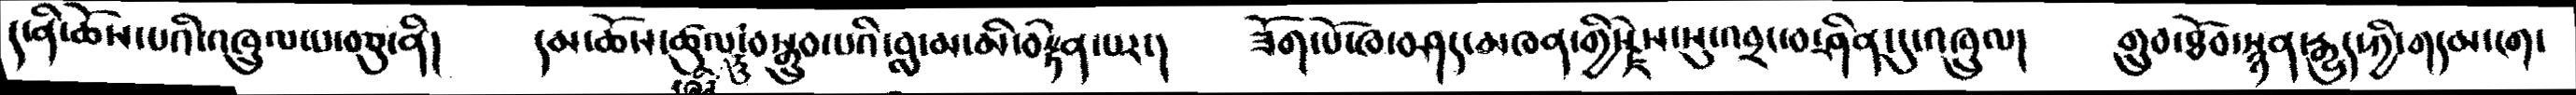ད་ནི་ཆོས་པའི་འཁྲུལ་པ་བཅུ་ནི།    དམ་ཆོས་ཚུལ་བཞིན་ཏུ་བསྒྲུབ་པའི་བླ་མ་མི་བརྟེན་པར་།   ཟོག་པོ་ཁ་བཤད་མཁན་གྱི་རྗེས་སུ་འབྲས་བ་ཤིན་དུ་འཁྲུལ།   གྲུབ་ཐོབ་སྙན་རྒྱུ་ཀྱི་གདམ་ངག་
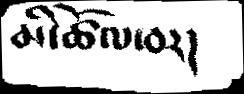མི་ཚོལ་བར།
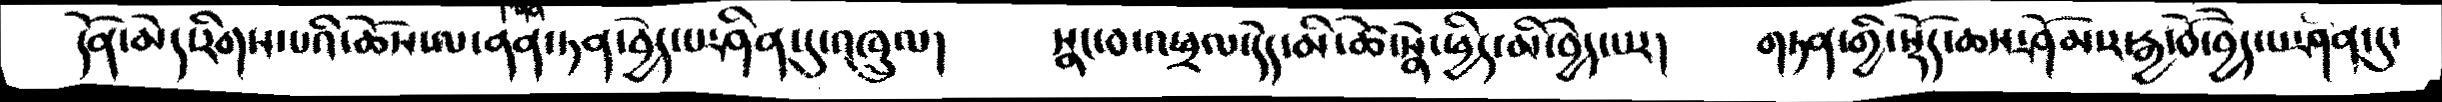དོན་མེད་རིགས་པའི་ཆོས་ལ་ནན་ཏན་བྱེད་པ་ཤིན་དུ་འཁྲུལ།      སྣང་བ་འཕྲལ་དེད་མི་ཚེ་སྣེ་ཕྱིད་མི་བྱེད་པར།    གཏན་གྱི་སྡོད་ཆས་ཤོམ་ར་རྒྱ་བོ་བྱེད་པ་ཤིན་དུ་
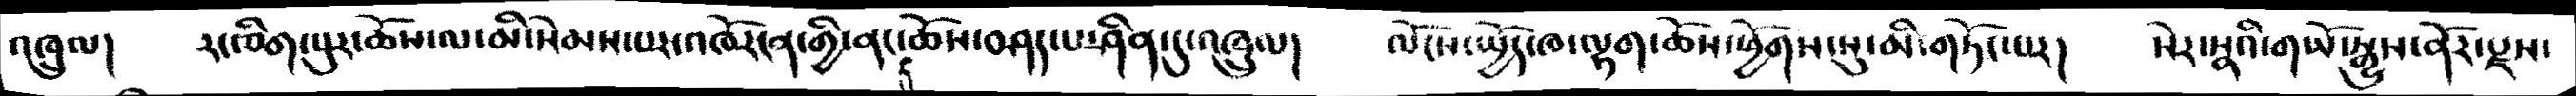འཁྲུལ།     རང་ཅིག་པུར་ཆོས་ལ་མི་སེམས་པར་འཁོར་ངན་གྱི་ནང་དུ་ཆོས་བཤད་པ་ཤིན་དུ་འཁྲུལ།     ལོངས་ཡྱོད་ཁ་ལྷག་ཆོས་ཕྱོགས་སུ་མི་གཏོང་པར།   སེར་སྣའི་གཡོ་སྒྱུས་ནོར་སྫས་
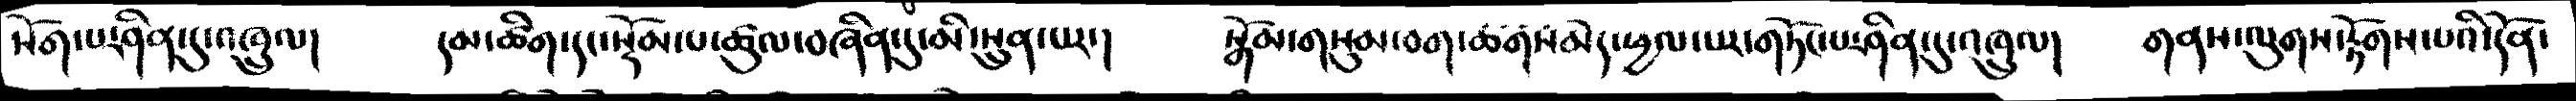སོག་པར་ཤིན་ངུ་འཁྲུལ།    དམ་ཚིག་དང་སྡོམ་པ་ཚུལ་བཞིན་དུ་མི་སྲུན་པར་།   སྒོམ་གསུམ་བག་ཆགས་མེད་ཕྱལ་པར་གཏོང་པ་ཤིན་དུ་འཁྲུལ།   གནས་ལུགས་རྟོགས་པའི་དོན་
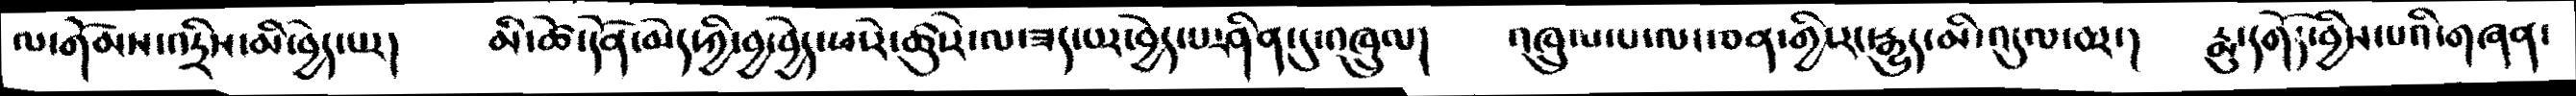ལ་གོམས་འཏྲིས་མི་བྱེད་པར།   མི་ཚེ་དོན་མེད་ཀྱི་བྱ་བྱེད་ཕ་རེ་ཚུ་རེ་ལ་ཟད་པར་བྱེད་པ་ཤིན་དུ་འཁྲུལ།   འཁྲུལ་པ་ལ་ཅན་གྱི་རང་རྒྱུད་མི་འདུལ་བར་།   རྨུ་དགོད་བྱིས་པའི་གཞན་
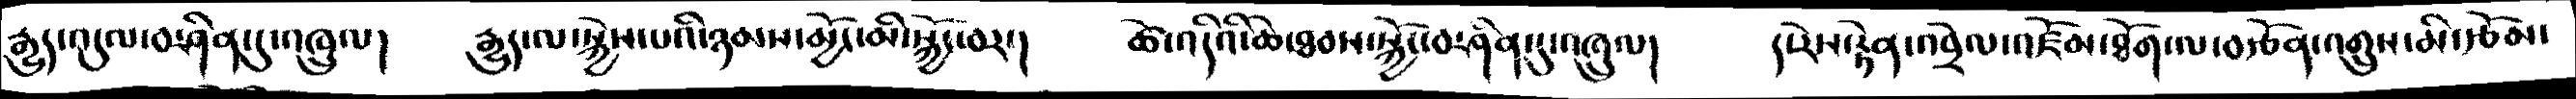རྒྱུད་འདུལ་བ་ཤིན་དུ།   རྒྱུད་ལ་སྐྱེས་པའི་ཉམས་མྱོང་མི་སྐྱོང་བར་།     ཚེ་འདིའི་ཆེ་ཐབས་སྐྱོ་བ་ཤིན་དུ་འཁྲུལ།     ད་རེས་རྟེན་འབྲེལ་འཛོམ་ཐོག་ལ་བརྩོན་འགྲུས་མི་རྩོམ་
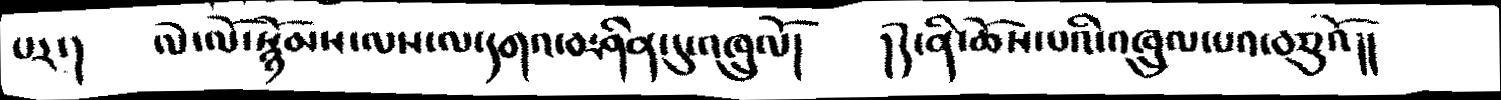པར་།    ལེ་ལོ་སྙོམས་ལས་ལ་དགའ་བ་ཤིན་དུ་འཁྲུལོ།   །དེ་ནི་ཆོས་པའི་འཁྲུལ་པའ་བཅུའོ།།
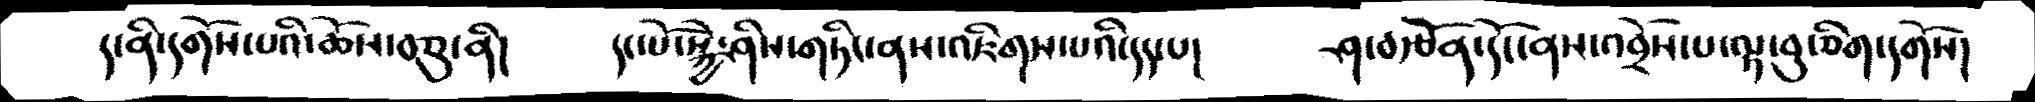ད་ནི་དགོས་པའི་ཆོས་བཅུ་ནི།     དང་པོ་སྐྱེ་ཤིས་གཏིང་ནས་འཛིགས་པའི་དད་པ།     ཤ་བརྩོན་དོང་ནས་འབྲོས་པ་ལྟ་བུ་ཅིག་དགོས།
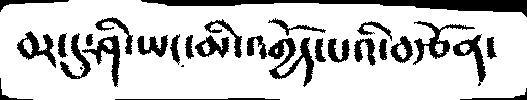བར་དུ་ཤི་ཡང་མི་འགྱོད་པའི་བརྩོན་
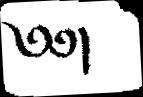༅༅།
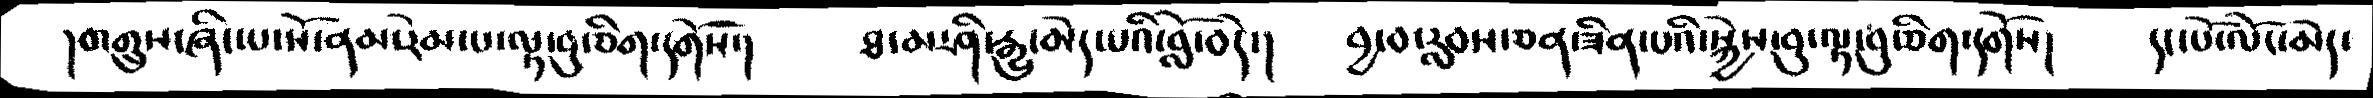།བ་གྲུས་ཞིང་པ་སོ་ནམ་རིམ་པ་ལྟ་བུ་ཅིག་དགོས་།  ཐ་མ་ཤི་རྒྱུ་མེད་པའི་བློ་བདེ་།  བྱ་བ་རླབས་ཅན་ཟིན་པའི་སྐྱེས་བུ་ལྟ་བུ་ཅིག་དགོས།  དང་པོ་ལོང་མེད་
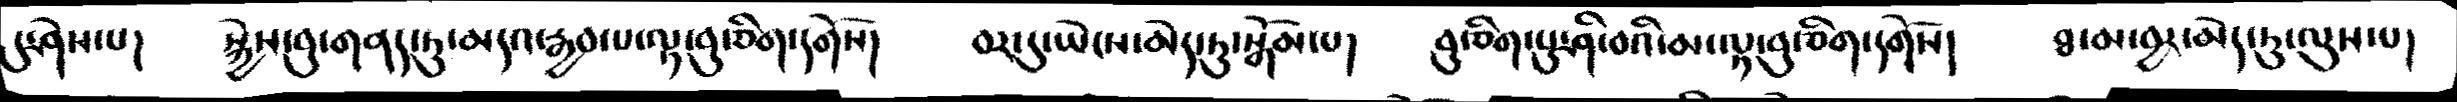དུ་ཤེས་པ། སྐྱེས་བུ་གནད་ཏུ་མདའ་རྒྱབ་པ་ལྟ་བུ་ཅིག་དགོས།  བར་དུ་ཡེངས་མེད་ཏུ་སྒོམ་པ།  བུ་ཅིག་པུ་ཤི་བའི་མ་ལྟ་བུ་ཅིག་དགོས།  ཐ་མ་བྱར་མེད་ཏུ་ལུས་པ།
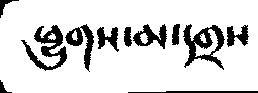ཕྱུགས་མ་དགྲས
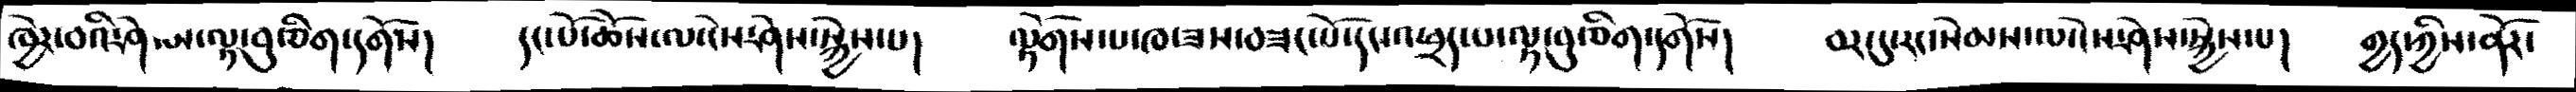ཁྱེར་བའི་ཤེ་མ་ལྟ་བུ་ཅིག་དགོས།  དང་པོ་ཆོས་ལ་ངེས་ཤེས་སྐྱེས་པ།  ལྟོགས་པ་ཁ་ཟས་བཟང་པོ་དང་འཕྲད་པ་ལྟ་བུ་ཅིག་དགོས།  བརདུ་རང་སེམས་ལ་ངེས་ཤེས་སྐྱེས་པ།  གྱད་ཀྱིས་ནོར་
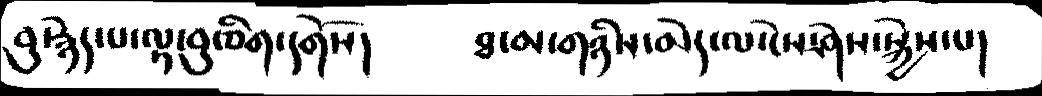བུ་རྙེད་པ་ལྟ་བུ་ཅིག་དགོས།  ཐ་མ་གཉིས་མེད་ལ་ངེས་ཤེས་སྐྱེས་པ།
